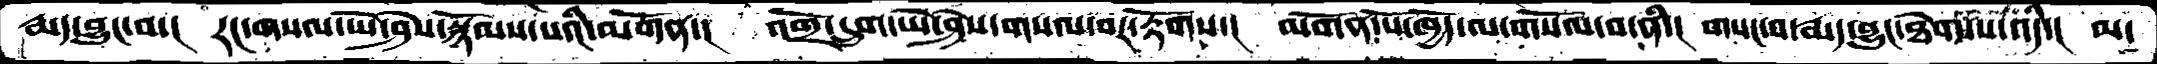རྨད་བྱུང་བ་།  རང་གསལ་ཡེ་ཤེས་སྙོམས་པའི་མགོན་།  འགྲོ་དྲུག་ཡེ་ཤེས་གསལ་པར་རྟོགས་།  མགོན་པོ་ཁྱོད་ལ་གསོལ་བ་ནི་།  གསང་བ་རྨད་བྱུང་ཐེག་པ་འདི་།  མ་
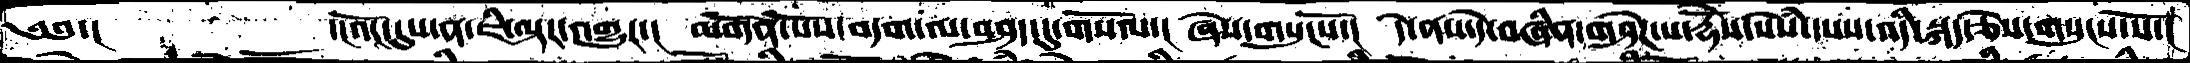༄༅་།    ་།འོང་དུས་ན་ཇི་ལྟར་འགྱུར་།  མགོན་པོས་བདག་ལ་བཤད་དུ་གསལོ་།  ཞེས་གསུངསོ་།  དེ་ནས་དེ་བཞིན་གཤེཌ་པ་རྡོེས་སེཾས་དཔས་འདི་སྐད་ཅེས་གསུངས་སོ་།
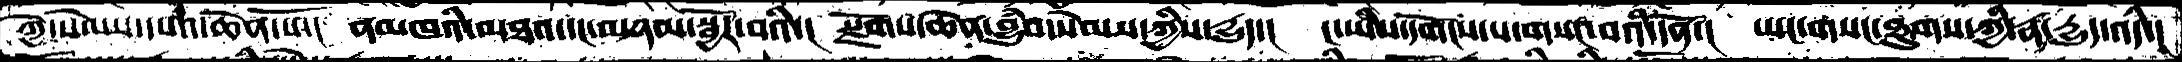ཀྱེ་སེམས་དཔའ་ཆེན་པོ་།  ནམཁའི་མཐའ་དང་མཉམ་སྦྱོར་བའི་།  སྫོགས་ཆེན་བྱུཾབ་སེམས་ཀྱིས་དྱུད་།  ང་ཡི་དགོངས་པ་གསང་བའི་དོན་།  ཡང་གསང་ཐུགས་ཀྱི་རྣ་རྒྱུད་འདི་།
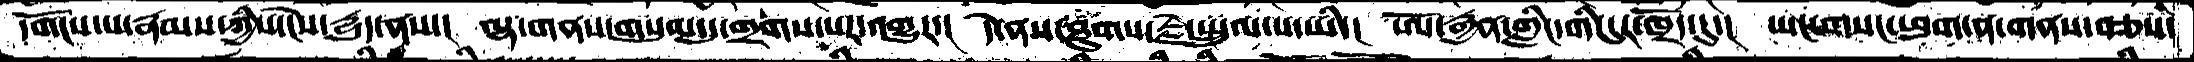དགོངས་པ་རྣམས་ཀྱིས་ངེས་དྱུད་ནས་།  ལྷ་གནས་གསུམ་དུ་གྲགས་པར་འགྱུར་།  དེ་ནས་ཐུགས་རྗེ་སྤྲུལ་པ་ཡི་།  ཨོ་རྒྱན་གླིང་གི་དུར་ཁྲོད་དུ་།  ཡང་གསང་ཕུག་ན་གནས་བཅས་
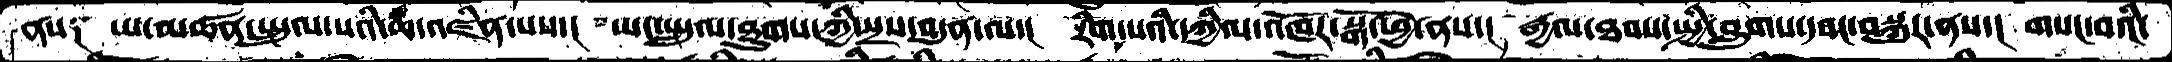ནས༑   ཡ་མཚན་སྤྲུལ་པའི་ཆ་འཛིན་པས་།  ཡང་སྤྲུལ་ཐུགས་ཀྱི་སྲས་བདུན་ལ་།  རིག་པའི་དཀྱིལ་འཁོར་སྒོ་ཕྱེ་ནས་།  རྒྱལ་ཐབས་སྤྱི་བླུགས་དབང་བསྐུར་ནས་།  གསང་བའི་
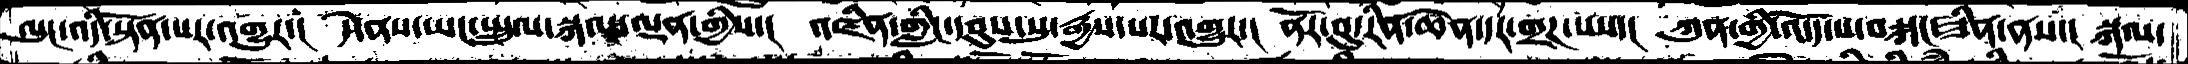ལུང་འདི་སྟོན་པར་འགྱུར་།  དེ་ནས་ཡང་སྤྲུལ་སྐལ་ལྡན་གྱིས་།  འཛིན་གླིང་དབུས་སུ་རྒྱས་པར་འགྱུར་།  ནོར་བུ་རིན་ཆེན་དར་གྲཌ་པས་།  ཀུན་གྱི་འདོད་པ་བསྐང་ཟིན་ནས་།  སྐལ་
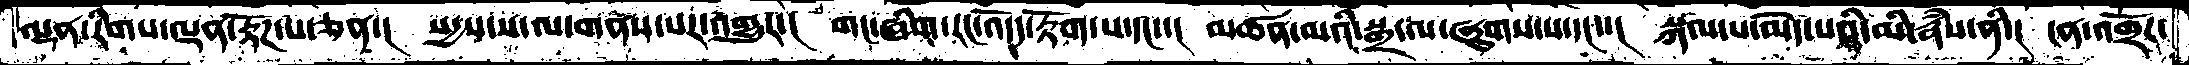ལྡན་རིགས་ལྡན་རྟོཌ་པ་ཅན་།  སདྱས་ས་ལ་གནས་པར་འགྱུར་།  གང་ཞིག་རང་འདོད་རྟོག་པ་དང་་།  མཚན་མའི་སྒྲ་ལ་ཞུགས་པ་དང་་།  སྐལ་པ་མེད་པའི་མི་རྣཾས་ནི་།  ངན་འགྲོར་
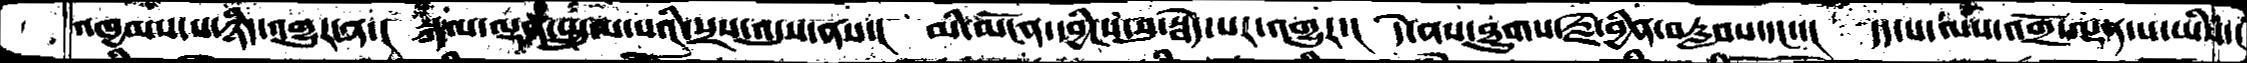འཁྱམས་པ་ཉིད་འགྱུར་ན་།  སྐལ་ལྡན་སྤྲུལ་པའི་སྲས་འདུས་ནས་།  མི་མངོན་དབྱིངས་སུ་སྦེད་པར་འགྱུར་།  དེ་ནས་ཐུགས་རྗེ་བྱིན་བརླབས་དང་་།  དད་པ་ལས་འགྲོ་ལྡན་པ་ཡིས་།
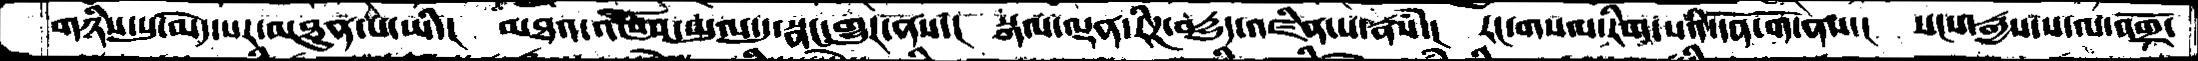གཉིས་སུ་མེད་པར་མཐུན་པ་ཡི་།  མཐའ་འཁོབ་ཡུལ་དུ་སྣང་གྱུར་ནས་།  སྐལ་ལྡན་རིཌ་བདྱུད་འཛིན་པ་རྣཾས་།  རང་གསལ་རིག་པའི་དོན་གོ་ནས་།  སངས་རྒྱས་ས་ལ་འགྲོ་
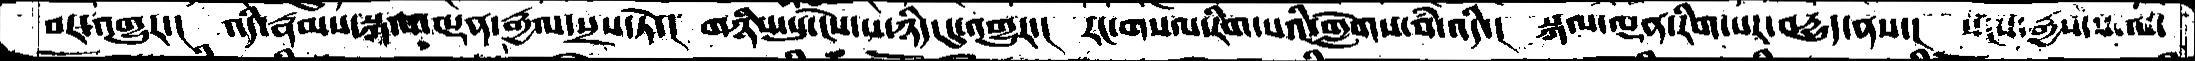བར་འགྱུར་།  འདི་རྣམས་སྐལ་ལྡན་རྒྱལ་སྲས་་ཏེ་།  གཉིས་སུ་ངེས་པ་ཉིད་དུ་འགྱུར་།  རང་གསལ་རིག་པའི་གླེགས་བཾ་འདི་།  སྐལ་ལྡན་རིག་པར་བདྱུད་ནས་།  སངས་རྒྱས་ས་ལ་
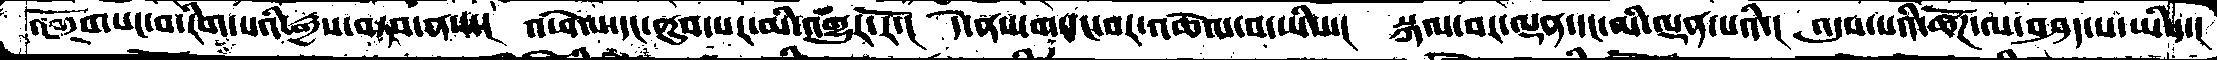འགྲོགསང་བ་རིག་པའི་རྒྱས་བཏབ་ནས་།  འཕེལ་དང་ནུབ་པར་མི་འགྱུར་རོ་།  དེ་ནས་གསང་བར་འཆེལ་བ་ཡིས་།  སྐལ་བར་ལྡན་དང་མི་ལྡན་པའི་།  འདུས་པའི་ཚོཌ་ལ་བཤད་པ་ཡིས་།
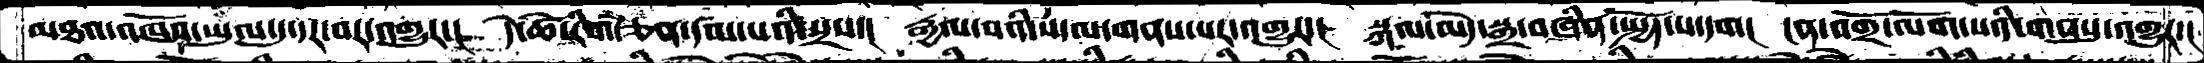མཐའ་འཁོབ་ཡུལ་དུ་དར་བར་འགྱུར་།  དེ་ཚེ་རིག་ཅན་དམ་པའི་སྲས་།  རྒྱལ་བའི་ས་ལ་གནས་པར་འགྱུར་། སྐལ་མེད་སྒྲ་བཞིན་སྤྱོད་པ་དག་།  ངན་འགྲོ་ལོག་པའི་གནསུ་འགྱུར་།
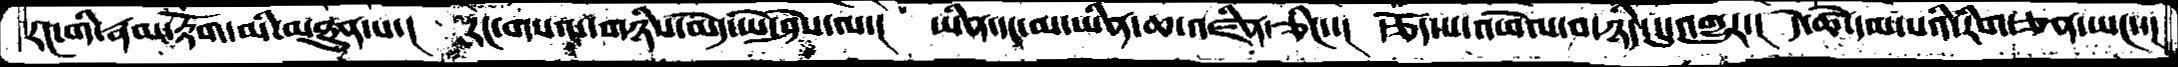རང་གི་་རྣམ་རྟོག་མི་མཐུན་པ་།  རང་གསལ་གཉིས་མེད་ཡེ་ཤེས་ལ་།  ཡིན་དང་མ་ཡིན་ཆ་འཛིན་ཅིང་་།  རྩོད་པ་འཕེལ་བ་ཉིད་དུ་འགྱུར་།  དེ་ཚེ་དམ་པའི་རིག་ཅན་ཡང་་།
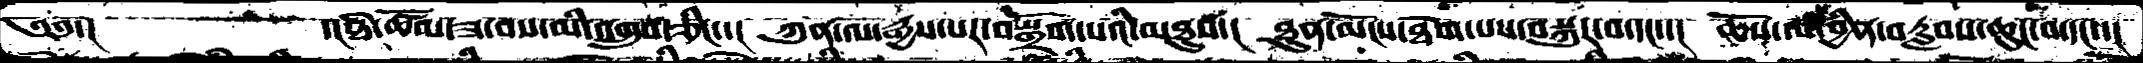༄༅་།          ་།ཐེ་ཚོམ་ཟ་བས་མི་འགྲུབ་ཅིང་་།  ཀུན་ལ་རྒྱས་པར་བསྒྲོག་པའི་མཐུས་།  ཐུན་མོངས་ཐེག་པས་བསྐུར་བ་དང་་།  ཆོས་ལ་བྱིན་བརླབས་ཆུང་བ་དང་་།
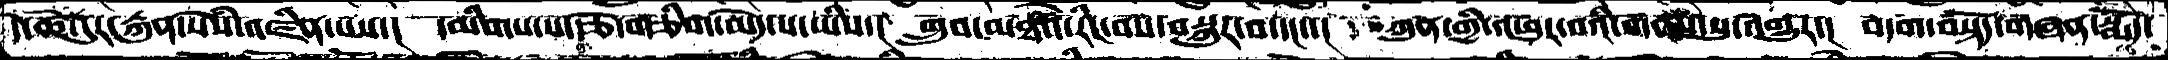དེ་ཚེ་དུར་རྐུན་སེཾས་འཛིན་པས་།  དམིགས་པ་རྩེ་གཅིག་མེད་པ་ཡིས་།  གྲུབ་མཐའ་རིང་བས་བསྐུར་བ་དང་་།  ཀུན་གྱི་འཕུར་བའི་གནས་སུ་འགྱུར་།  བདག་བསྟོད་གཞན་སྨོད་
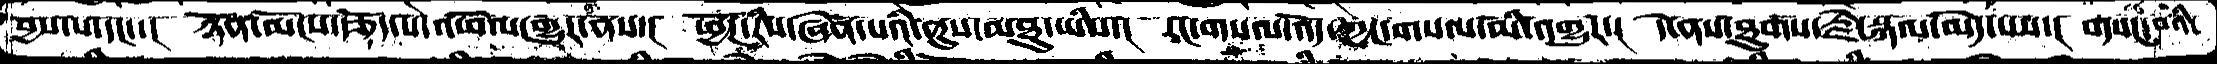བྱས་པ་དང་་།  ཉོན་མོངས་རྩོད་པ་འཕེལ་གྱུར་ནས་།  ཕྱོཌ་རིས་ཞེན་པའི་ནུས་མཐུ་ཡིས་།  རང་གསལ་འོད་ཀྱང་གསལ་མི་འགྱུར་།  དེ་ནས་ཐུགས་རྗེ་སྐལ་མེད་པས་།  གསང་བའི་
